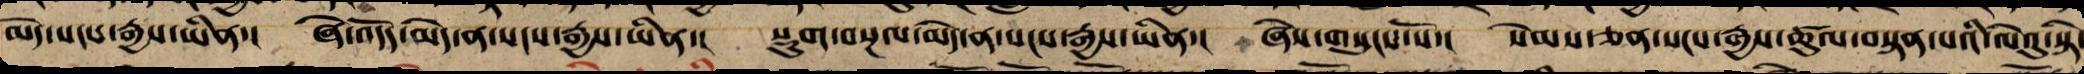མེད་སངས་རྒྱས་ཡིན་། ཞེ་འདོད་མེད་ན་སངས་རྒྱས་ཡིན་། སྡུག་བསྔལ་མེད་ན་སངས་རྒྱས་ཡིན་། ཞེས་གསུངས་སོ་། སེམས་ཅན་སངས་རྒྱས་ཚུལ་བསྟན་པའི་ལེའུ་སྟེ་
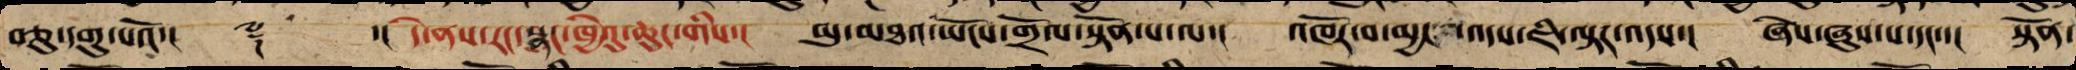བཅུ་དགུ་པའོ་།། ༈ ་།། དེ་ནས་རང་སྣང་ཁྱེའུ་ཆུང་གིས་། མུ་མཐའ་ཡོངས་གྲོལ་སྟོན་པ་ལ་། འཁོར་བ་མྱ་འདས་ཇི་ལྟར་འདས་། ཞེས་ཞུས་པ་དང་་། སྟོན་
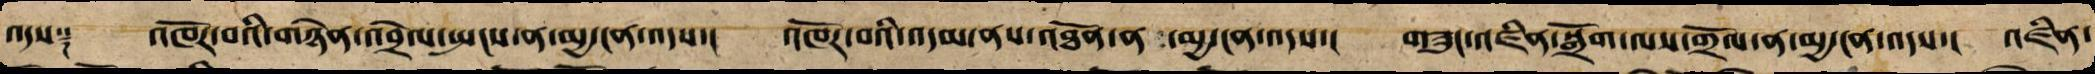འདས༑ འཁོར་བའི་གཉེན་འབྲེལ་སྤངས་ན་མྱ་ངན་འདས་། འཁོར་བའི་འདམ་ནས་ཐོན་ན་མྱ་ངན་འདས་། གཟུང་འཛིན་སྒྲོག་ལས་གྲོལ་ན་མྱ་ངན་འདས་། འཛིན་
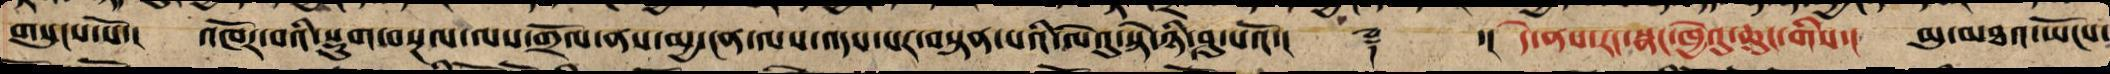གསུངས་སོ་། འཁོར་བའི་སྡུག་བསྔལ་ལས་གྲོལ་ནས་མྱ་ངན་ལས་འདས་པར་བསྟན་པའི་ལེའུ་སྟེ་ཉི་ཤུ་པའོ་།། ༈ ་།། དེ་ནས་རང་སྣང་ཁྱེའུ་ཆུང་གིས་། མུ་མཐའ་ཡོངས་
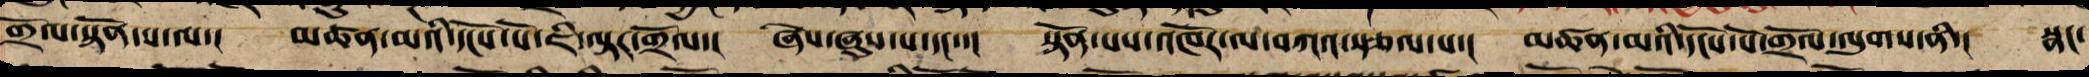གྲོལ་སྟོན་པ་ལ་། མཚན་མའི་དངོས་པོ་ཇི་ལྟར་གྲོལ་། ཞེས་ཞུས་པ་དང་་། སྟོན་པས་འཁོར་ལ་བཀའ་སྩལ་པ་། མཚན་མའི་དངོས་པོ་གྲོལ་ལུགས་ནི་། སྣང་
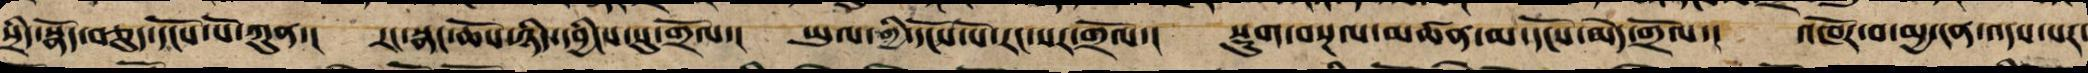སྲིད་སྣོད་བཅུད་དངོས་པོ་ཀུན་། རང་སྣང་ཆོས་ཉིད་དབྱིངས་སུ་གྲོལ་། ཡུལ་གྱི་དངོས་པོ་རང་སར་གྲོལ་། སྡུག་བསྔལ་མཚན་མ་དངོས་མེད་གྲོལ་། འཁོར་བ་མྱ་ངན་འདས་པར་
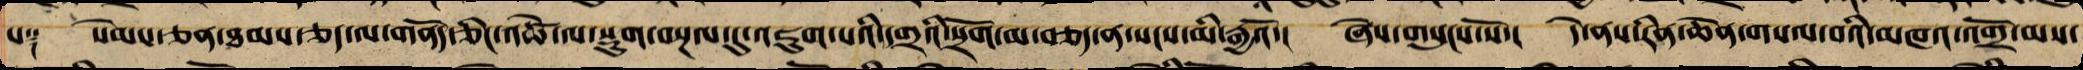པ༑ སེམས་ཅན་ཐམས་ཅད་ལ་གནོད་ཅིང་འཚེ་ལ་སྡུག་བསྔལ་དུ་འཇུག་པའི་དགྲའི་སྲོག་མ་བཅད་ན་སངས་མི་རྒྱའོ་། ཞེས་གསུངས་སོ་། དེ་ནས་རིན་ཆེན་གསལ་བའི་མཁའ་འགྲོ་མས་
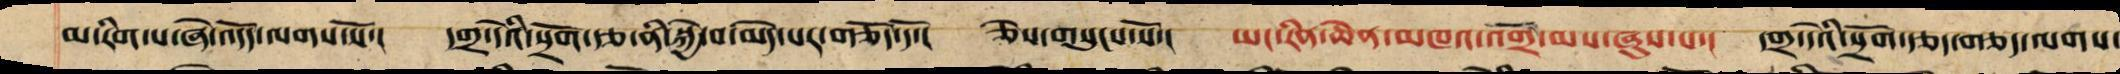མ་རིག་པ་ཞེ་འདོད་ལགས་སོ་། དགྲ་དེའི་སྲོག་རྩ་ནི་སྐྱེ་བ་མེད་པར་གཅོད་དོ་། ཅེས་གསུངས་སོ་། ཡང་རིན་ཆེན་མཁའ་འགྲོ་མས་ཞུས་པ་། དགྲ་དེའི་སྲོག་རྩ་བཅད་ལགས་
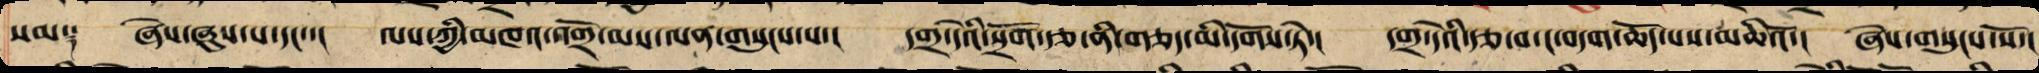སམ༑ ཞེས་ཞུས་པ་དང་་། ལས་ཀྱི་མཁའ་འགྲོ་མས་ལན་གསུངས་པ་། དགྲ་དེའི་སྲོག་རྩ་ནི་བཅད་མི་དགོས་ཏེ་། དགྲ་དེའི་རྩ་བ་ང་བདག་ཆོད་པས་འཆིའོ་། ཞེས་གསུངས་སོ་།
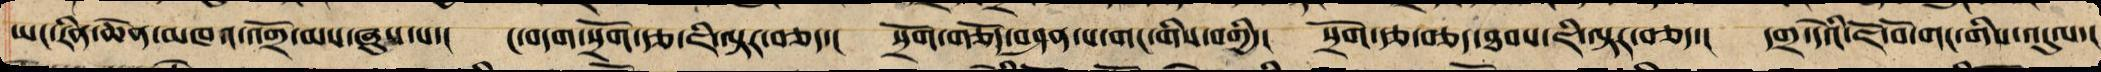ཡང་རིན་ཆེན་མཁའ་འགྲོ་མས་ཞུས་པ་། ང་བདག་སྲོག་རྩ་ཇི་ལྟར་བཅད་། སྲོག་གཅོད་བཤན་པ་གང་གིས་བགྱི་། སྲོག་རྩ་བཅད་ཐབས་ཇི་ལྟར་བཅད་། དགྲ་དེའི་ཇོ་བོ་གང་གིས་འདུལ་།
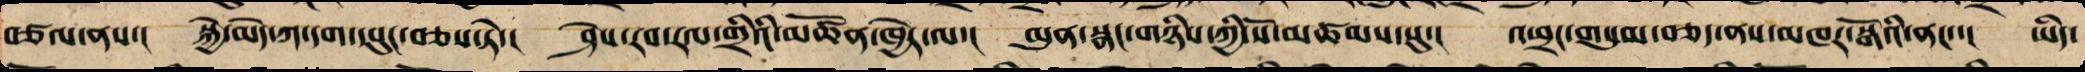བཙལ་ནས་། སྐྱེ་མེད་ཀ་དག་དཔུང་བཅས་ཏེ་། ཤེས་རབ་རལ་གྲིའི་མཚོན་ཁྱེར་ལ་། མུན་སྣང་གཉིས་ཀྱི་སོ་མཚམས་སུ་། འཕྲང་གསུམ་བཅད་ནས་མཁར་སྒོའི་ནང་་། ཡིད་
